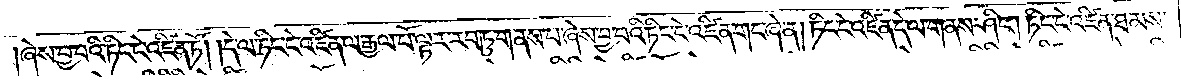ཞེས་བྱ་བའི་ཏིང་ངེ་འཛིན་ཏོ། །དེ་ལ་ཏིང་ངེ་འཛིན་ལ་རྒྱལ་པོ་ལྟར་རབ་ཏུ་གནས་པ་ཞེས་བྱ་བའི་ཏིང་ངེ་འཛིན་གང་ཞེ་ན། །ཏིང་ངེ་འཛིན་དེ་ལ་གནས་ཤིང༌། ཏིང་ངེ་འཛིན་ཐམས་
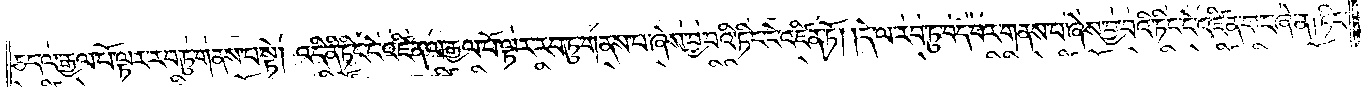ཅད་ལ་རྒྱལ་པོ་ལྟར་རབ་ཏུ་གནས་པ་སྟེ། འདི་ནི་ཏིང་ངེ་འཛིན་ལ་རྒྱལ་པོ་ལྟར་རབ་ཏུ་གནས་པ་ཞེས་བྱ་བའི་ཏིང་ངེ་འཛིན་ཏོ། །དེ་ལ་རབ་ཏུ་བདེ་བར་གནས་པ་ཞེས་བྱ་བའི་ཏིང་ངེ་འཛིན་གང་ཞེ་ན། ཏིང་
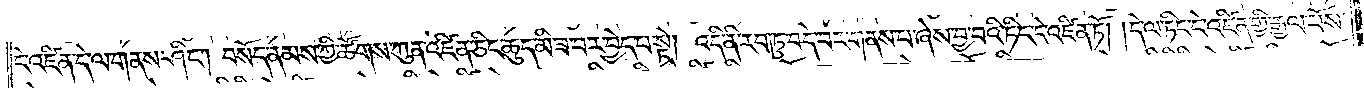ངེ་འཛིན་དེ་ལ་གནས་ཤིང༌། བསོད་ནམས་ཀྱི་ཚོགས་ཀུན་འཛིན་ཅིང་ཆུད་མི་ཟ་བར་བྱེད་པ་སྟེ། འདི་ནི་རབ་ཏུ་བདེ་བར་གནས་པ་ཞེས་བྱ་བའི་ཏིང་ངེ་འཛིན་ཏོ། །དེ་ལ་ཏིང་ངེ་འཛིན་གྱི་རྒྱལ་པོས་
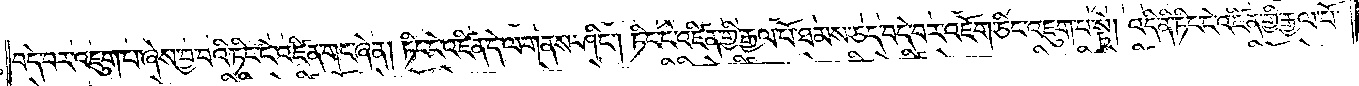བདེ་བར་འཇུག་པ་ཞེས་བྱ་བའི་ཏིང་ངེ་འཛིན་གང་ཞེ་ན། ཏིང་ངེ་འཛིན་དེ་ལ་གནས་ཤིང༌། ཏིང་ངེ་འཛིན་གྱི་རྒྱལ་པོ་ཐམས་ཅད་བདེ་བར་འཇོག་ཅིང་འཇུག་པ་སྟེ། འདི་ནི་ཏིང་ངེ་འཛིན་གྱི་རྒྱལ་པོ་
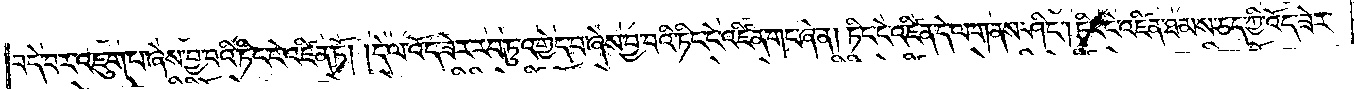བདེ་བར་འཇུག་པ་ཞེས་བྱ་བའི་ཏིང་ངེ་འཛིན་ཏོ། །དེ་ལ་འོད་ཟེར་རབ་ཏུ་འགྱེད་པ་ཞེས་བྱ་བའི་ཏིང་ངེ་འཛིན་གང་ཞེ་ན། ཏིང་ངེ་འཛིན་དེ་ལ་གནས་ཤིང༌། ཏིང་ངེ་འཛིན་ཐམས་ཅད་ཀྱི་འོད་ཟེར་
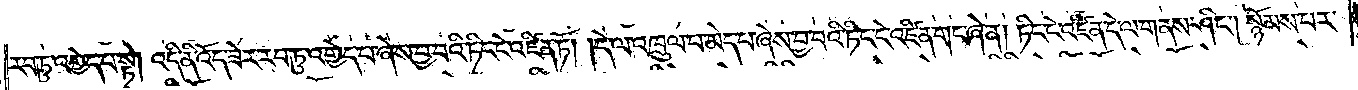རབ་ཏུ་འགྱེད་པ་སྟེ། འདི་ནི་འོད་ཟེར་རབ་ཏུ་འགྱེད་པ་ཞེས་བྱ་བའི་ཏིང་ངེ་འཛིན་ཏོ། །དེ་ལ་འཁྲུལ་པ་མེད་པ་ཞེས་བྱ་བའི་ཏིང་ངེ་འཛིན་གང་ཞེ་ན། ཏིང་ངེ་འཛིན་དེ་ལ་གནས་ཤིང༌། སྙོམས་པར་
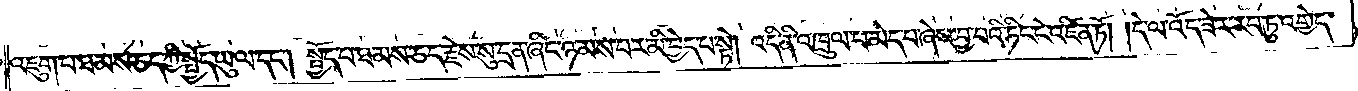འཇུག་པ་ཐམས་ཅད་ཀྱི་སྤྱོད་ཡུལ་དང༌། སྤྱོད་པ་ཐམས་ཅད་རྗེས་སུ་དྲན་ཞིང་ཉམས་པར་མི་བྱེད་པ་སྟེ། འདི་ནི་འཁྲུལ་པ་མེད་པ་ཞེས་བྱ་བའི་ཏིང་ངེ་འཛིན་ཏོ། །དེ་ལ་འོད་ཟེར་རབ་ཏུ་འགྱེད་
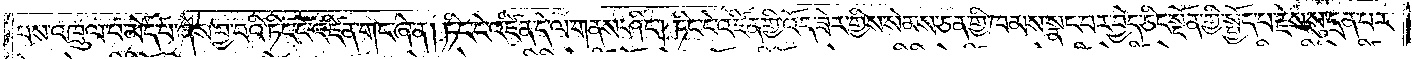པས་འཁྲུལ་པ་མེད་པ་ཞེས་བྱ་བའི་ཏིང་ངེ་འཛིན་གང་ཞེ་ན། ཏིང་ངེ་འཛིན་དེ་ལ་གནས་ཤིང༌། ཏིང་ངེ་འཛིན་གྱི་འོད་ཟེར་གྱིས་སེམས་ཅན་གྱི་ཁམས་སྣང་བར་བྱེད་ཅིང་སྔོན་གྱི་སྤྱོད་པ་རྗེས་སུ་དྲན་པར་
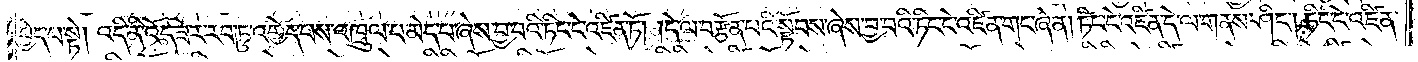བྱེད་པ་སྟེ། འདི་ནི་འོད་ཟེར་རབ་ཏུ་འགྱེད་པས་འཁྲུལ་པ་མེད་པ་ཞེས་བྱ་བའི་ཏིང་ངེ་འཛིན་ཏོ། །དེ་ལ་བརྩོན་པའི་སྟོབས་ཞེས་བྱ་བའི་ཏིང་ངེ་འཛིན་གང་ཞེ་ན། ཏིང་ངེ་འཛིན་དེ་ལ་གནས་ཤིང༌། ཏིང་ངེ་འཛིན་
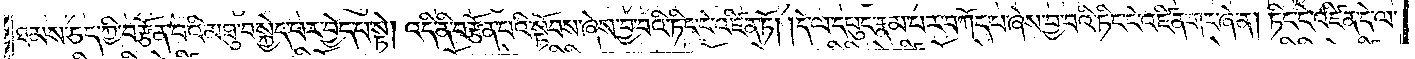ཐམས་ཅད་ཀྱི་བརྩོན་པའི་མཐུ་བསྐྱེད་པར་བྱེད་པ་སྟེ། འདི་ནི་བརྩོན་པའི་སྟོབས་ཞེས་བྱ་བའི་ཏིང་ངེ་འཛིན་ཏོ། །དེ་ལ་དཔུང་རྣམ་པར་བཀོད་པ་ཞེས་བྱ་བའི་ཏིང་ངེ་འཛིན་གང་ཞེ་ན། ཏིང་ངེ་འཛིན་དེ་ལ་
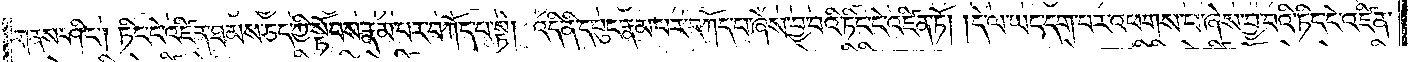གནས་ཤིང༌། ཏིང་ངེ་འཛིན་ཐམས་ཅད་ཀྱི་སྟོབས་རྣམ་པར་བཀོད་པ་སྟེ། འདི་ནི་དཔུང་རྣམ་པར་བཀོད་པ་ཞེས་བྱ་བའི་ཏིང་ངེ་འཛིན་ཏོ། །དེ་ལ་ཡང་དག་པར་འཕགས་པ་ཞེས་བྱ་བའི་ཏིང་ངེ་འཛིན་
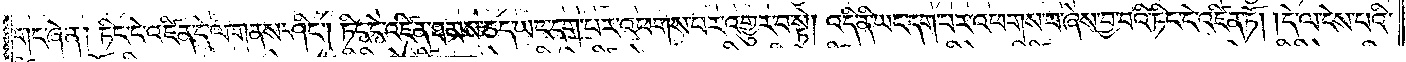གང་ཞེ་ན། ཏིང་ངེ་འཛིན་དེ་ལ་གནས་ཤིང༌། ཏིང་ངེ་འཛིན་ཐམས་ཅད་ཡང་དག་པར་འཕགས་པར་འགྱུར་བ་སྟེ། འདི་ནི་ཡང་དག་པར་འཕགས་པ་ཞེས་བྱ་བའི་ཏིང་ངེ་འཛིན་ཏོ། །དེ་ལ་ངེས་པའི་
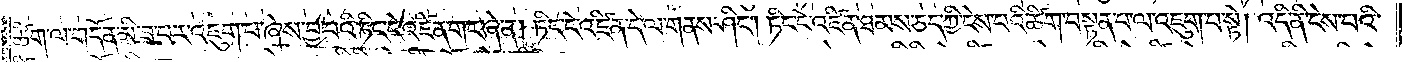ཚིག་ལ་གདོན་མི་ཟ་བར་འཇུག་པ་ཞེས་བྱ་བའི་ཏིང་ངེ་འཛིན་གང་ཞེ་ན། ཏིང་ངེ་འཛིན་ལ་གནས་ཤིང༌། ཏིང་ངེ་འཛིན་ཐམས་ཅད་ཀྱི་ངེས་པའི་ཚིག་བསྟན་པ་ལ་འཇུག་པ་སྟེ། འདི་ནི་ངེས་པའི་
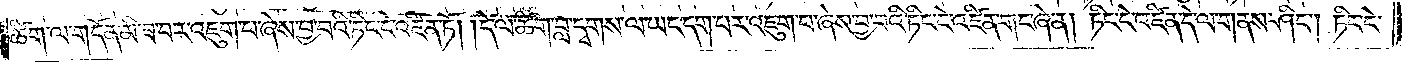ཚིག་ལ་གདོན་མི་ཟ་བར་འཇུག་པ་ཞེས་བྱ་བའི་ཏིང་ངེ་འཛིན་ཏོ། །དེ་ལ་ཚིག་བླ་དྭགས་ལ་ཡང་དག་པར་འཇུག་པ་ཞེས་བྱ་བའི་ཏིང་ངེ་འཛིན་གང་ཞེ་ན། ཏིང་ངེ་འཛིན་དེ་ལ་གནས་ཤིང༌། ཏིང་ངེ་
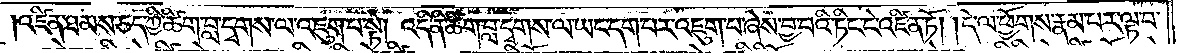འཛིན་ཐམས་ཅད་ཀྱི་ཚིག་བླ་དྭགས་ལ་འཇུག་པ་སྟེ། འདི་ནི་ཚིག་བླ་དགས་ལ་ཡང་དག་པར་འཇུག་པ་ཞེས་བྱ་བའི་ཏིང་ངེ་འཛིན་ཏོ། །དེ་ལ་ཕྱོགས་རྣམ་པར་ལྟ་བ་
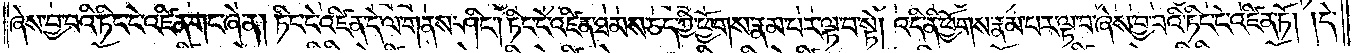ཞེས་བྱ་བའི་ཏིང་ངེ་འཛིན་གང་ཞེ་ན། ཏིང་ངེ་འཛིན་དེ་ལ་གནས་ཤིང༌། ཏིང་ངེ་འཛིན་ཐམས་ཅད་ཀྱི་ཕྱོགས་རྣམ་པར་ལྟ་བ་སྟེ། འདི་ནི་ཕྱོགས་རྣམ་པར་ལྟ་བ་ཞེས་བྱ་བའི་ཏིང་ངེ་འཛིན་ཏོ། །དེ་
